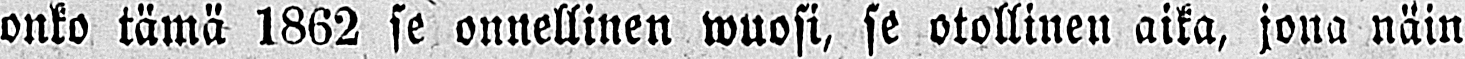onko tämä 1862 se onnellinen wuosi, se otollinen aika, jona näin
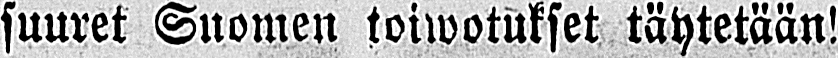suuret Suomen toiwotukset täytetään!
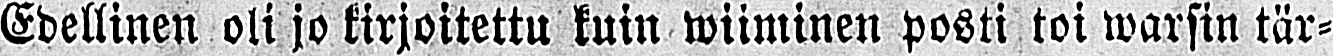Edellinen oli jo kirjoitettu kuin wiiminen posti toi warsin tär-
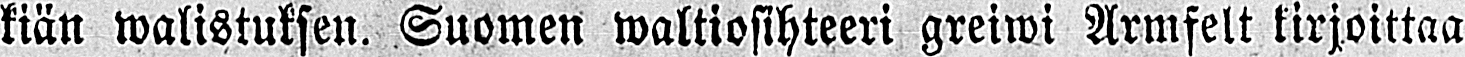kiän walistuksen. Suomen waltiosihteeri greiwi Armfelt kirjoittaa
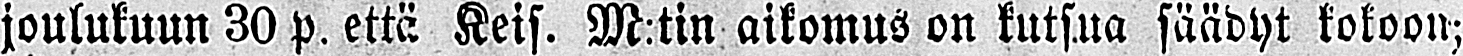joulukuun 30 p. että Keis. M:tin aikomus on kutsua säädyt kokoon;
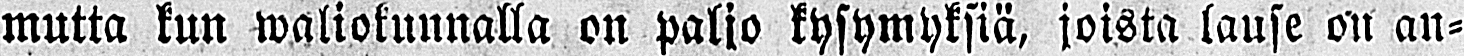mutta kun waliokunnalla on paljo kysymyksiä, joista lause on an-
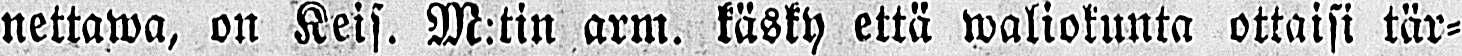nettawa, on Keis. M:tin arm. käsky että waliokunta ottaisi tär-
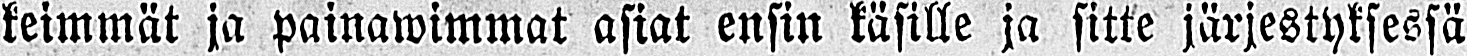keimmät ja painawimmat asiat ensin käsille ja sitte järjestyksessä
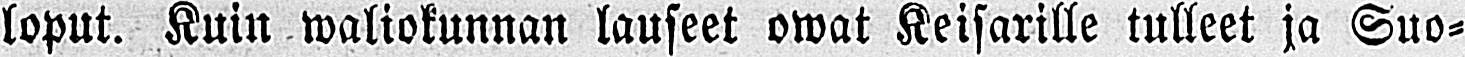loput. Kuin waliokunnan lauseet owat Keisarille tulleet ja Suo-
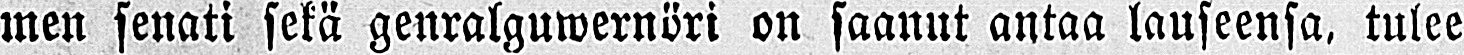men senati sekä genralguwernöri on saanut antaa lauseensa, tulee
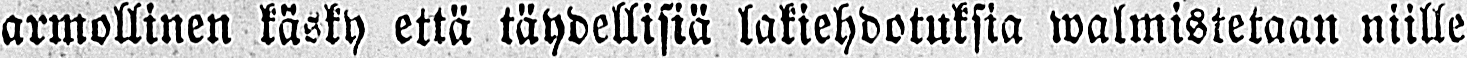armollinen käsky että täydellisiä lakiehdotuksia walmistetaan niille
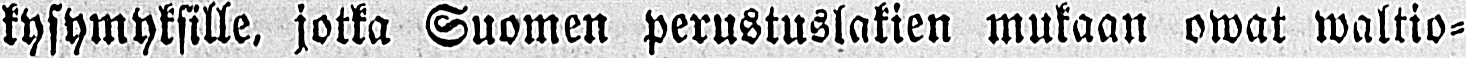kysymyksille, jotka Suomen perustuslakien mukaan owat waltio-
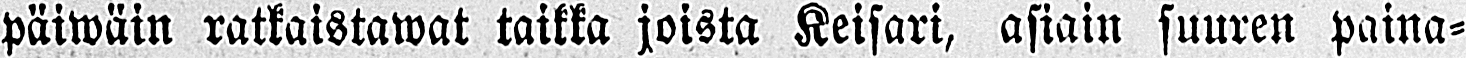päiwäin ratkaistawat taikka joista Keisari, asiain suuren paina-
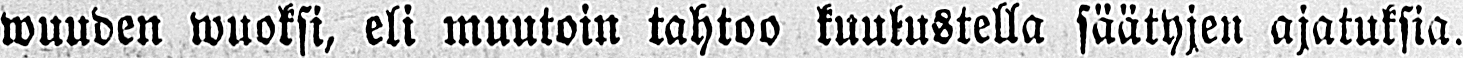wuuden wuoksi, eli muutoin tahtoo kuulustella säätyjen ajatuksia.
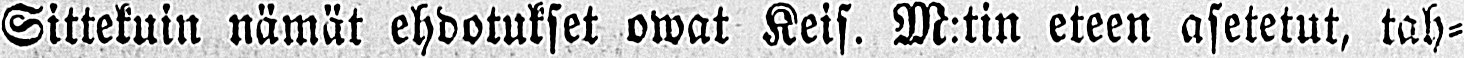Sittekuin nämät ehdotukset owat Keis. M:tin eteen asetetut, tah-
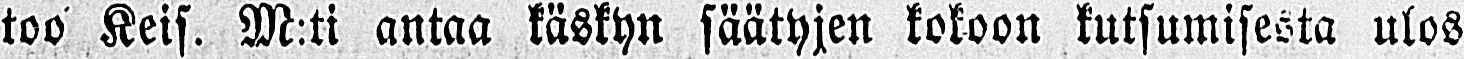too Keis. M:ti antaa käskyn säätyjen kokoon kutsumisesta ulos
